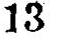13
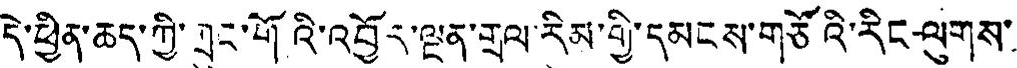དེ་ཕྱིན་ཆད་ཀྱི་ཀྲུང་གོའི་འབྱོར་ལྔན་གྲལ་རིམ་གྱི་དམངས་གཙོའི་རིང་ལུགས་
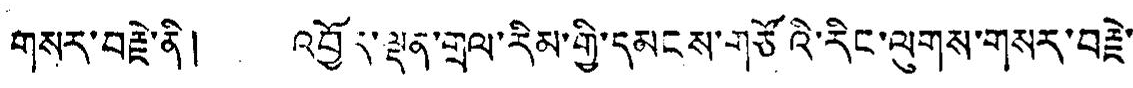གསར་བརྗེ་ནི། འབྱོར་ལྡན་གྲལ་རིམ་གྱི་དམངས་གཙོའི་རིང་ལུགས་གསར་བརྗེ་
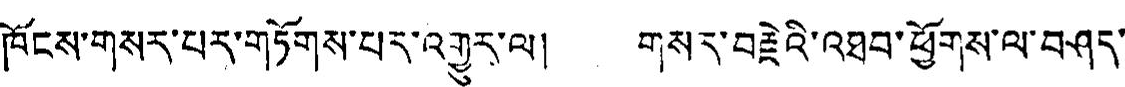ཁོངས་གསར་པར་གཏོགས་པར་འགྱུར་ལ། གསར་བརྗེའི་འཐབ་ཕྱོགས་ལ་བཤད་
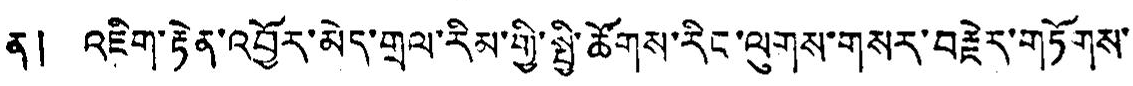ན། འཇིག་རྟེན་འབྱོར་མེད་གྲལ་རིམ་གྱི་སྤྱི་ཚོགས་རིང་ལུགས་གསར་བརྗེར་གཏོགས་
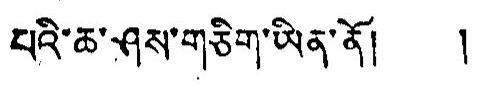པིའ་ཆ་ཤས་གཅིག་ཡིན་ནོ། །
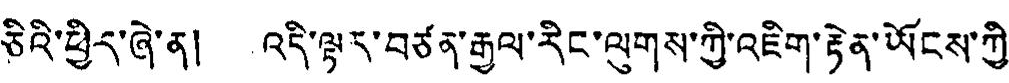ཅིའི་ཕྱིར་ཞེ་ན། འདི་ལྟར་བཙན་རྒྱལ་རིང་ལུགས་ཀྱི་འཇིག་རྟེན་ཡོངས་ཀྱི་
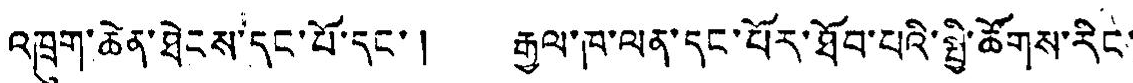འཁྲུག་ཆེན་ཐེངས་དང་པོ་དང་། རྒྱལ་ཁ་ལན་དང་པོར་ཐོབ་པའི་སྤྱི་ཚོགས་རིང་
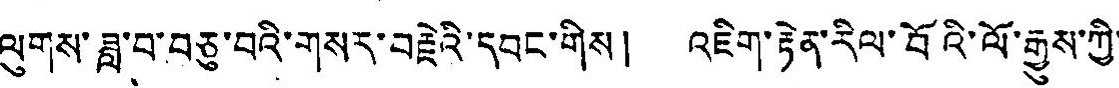ལུགས་ཟླ་བ་བཅུ་བའི་གསར་བརྗེའི་དབང་གིས། འཇིག་རྟེན་རིལ་བོའི་ལོ་རྒྱུས་ཀྱི་
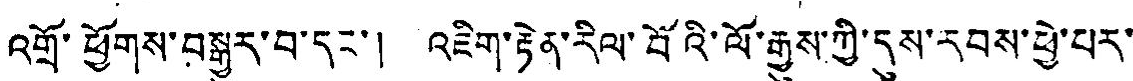འགྲོ་ཕྱོགས་བསྒྱུར་བ་དང་། འཇིག་རྟེན་རིལ་བོའི་ལོ་རྒྱུས་ཀྱི་དུས་རབས་ཕྱེ་པར་
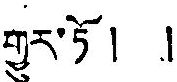གྱུར་ཏོ། །
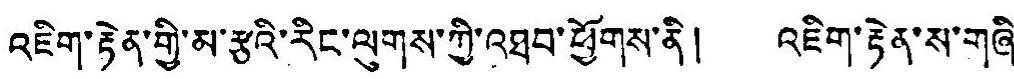འཇིག་རྟེན་གྱི་མ་རྩའི་རིང་ལུགས་ཀྱི་འཐབ་ཕྱོགས་ནི། འཇིག་རྟེན་ས་གཞི་
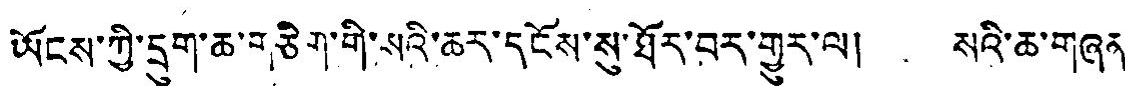ཡོངས་ཀྱི་དྲུག་ཆ་གཅིག་གི་སའི་ཆར་དངོས་སུ་ཐོར་བར་གྱུར་ལ། སའི་ཆ་གཞན་
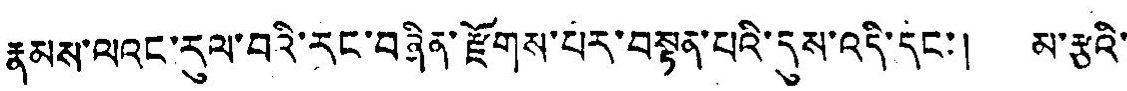རྣམས་ལའང་རུལ་བའི་རང་བཞིན་རྫོགས་པར་བསྟན་པའི་དུས་འདི་དང་། མ་རྩའི་
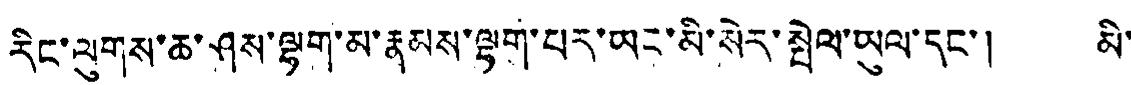རིང་ལུགས་ཆ་ཤས་ལྷག་མ་རྣམས་ལྷག་པར་ཡནག་མི་སེར་སྤེལ་ཡུལ་དང་། མི་
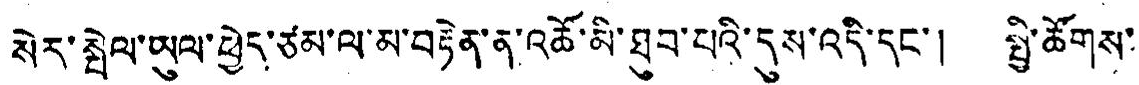སེར་སྤེལ་ཡུལ་ཕྱེད་ཙམ་ལ་མ་བརྟེན་ན་འཚོ་མི་ཐུབ་པའི་དུས་འདི་དང་། སྤྱི་ཚོགས་
